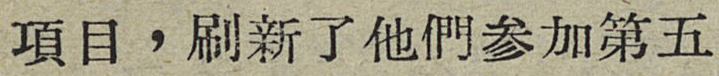項目，刷新了他們参加第五
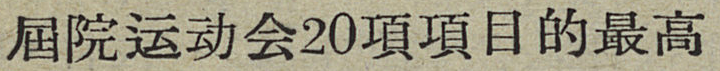屆员运动会20項項目的最高
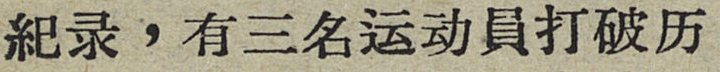紀录，有三名运动員打破历
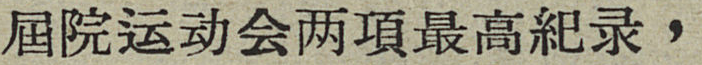屆员运动会两項最高紀录，
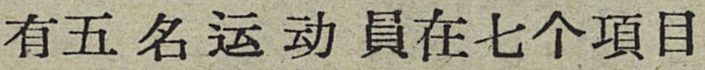有五名运动員在七个項目
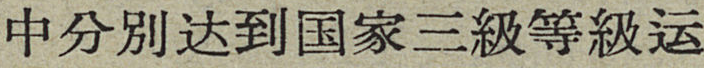中分别达到国家三級等級运
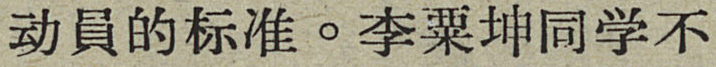动員的标准。李粟坤同学不
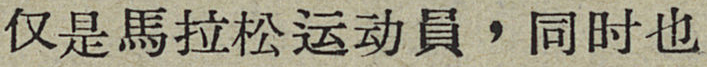仅是馬拉松运动員，同时也
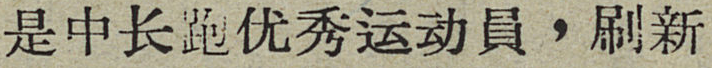是中长跑优秀运动員，刷新
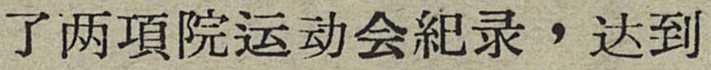了两項员运动会紀录，达到
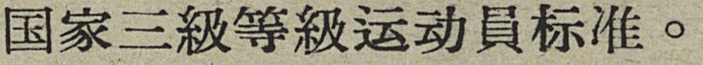国家三級等級运动員标准。
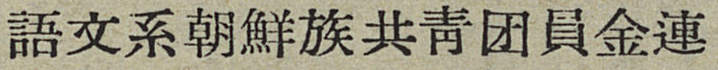語文系朝鮮族共靑团員金連
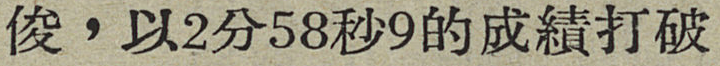俊，以2分58秒9的成績打破
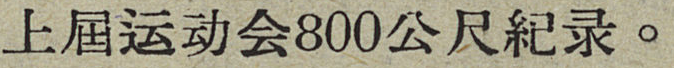上屆运动会800公尺紀录。
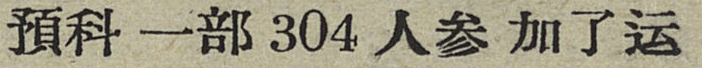預科一部304人参加了运
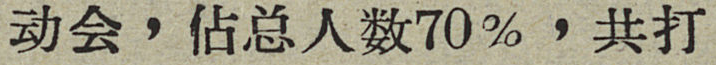动会，佔总人数70％，共打
